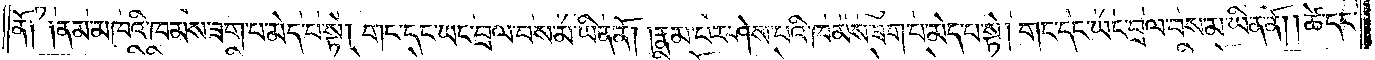ནོ༑ ༑ནམ་མཁའི་ཁམས་ཟག་པ་མེད་པ་སྟེ། གང་དང་ཡང་བྲལ་བས་མ་ཡིན་ནོ། །རྣམ་པར་ཤེས་པའི་ཁམས་ཟག་པ་མེད་པ་སྟེ། གང་དང་ཡང་བྲལ་བས་མ་ཡིན་ནོ། །ཚེ་དང་
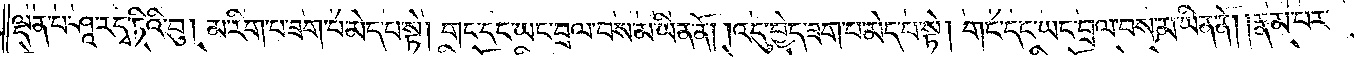ལྡན་པ་ཤཱ་ར་དྭ་ཏིའི་བུ། མ་རིག་པ་ཟག་པ་མེད་པ་སྟེ། གང་དང་ཡང་བྲལ་བས་མ་ཡིན་ནོ། །འདུ་བྱེད་ཟག་པ་མེད་པ་སྟེ། གང་དང་ཡང་བྲལ་བས་མ་ཡིན་ནོ། །རྣམ་པར་
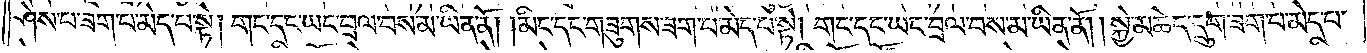ཤེས་པ་ཟག་པ་མེད་པ་སྟེ། གང་དང་ཡང་བྲལ་བས་མ་ཡིན་ནོ། །མིང་དང་གཟུགས་ཟག་པ་མེད་པ་སྟེ། གང་དང་ཡང་བྲལ་བས་མ་ཡིན་ནོ། །སྐྱེ་མཆེད་དྲུག་ཟག་པ་མེད་པ་
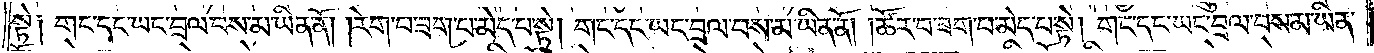སྟེ༑ གང་དང་ཡང་བྲལ་བས་མ་ཡིན་ནོ། །རེག་པ་ཟག་པ་མེད་པ་སྟེ། གང་དང་ཡང་བྲལ་བས་མ་ཡིན་ནོ། །ཚོར་བ་ཟག་པ་མེད་པ་སྟེ། གང་དང་ཡང་བྲལ་བས་མ་ཡིན་
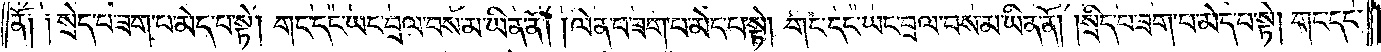ནོ༑ ༑།སྲེད་པ་ཟག་པ་མེད་པ་སྟེ། གང་དང་ཡང་བྲལ་བས་མ་ཡིན་ནོ། །ལེན་པ་ཟག་པ་མེད་པ་སྟེ། གང་དང་ཡང་བྲལ་བས་མ་ཡིན་ནོ། །སྲིད་པ་ཟག་པ་མེད་པ་སྟེ། གང་དང་
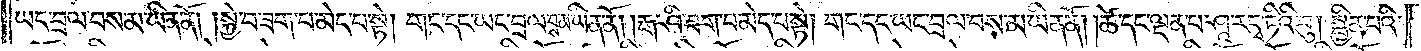ཡང་བྲལ་བས་མ་ཡིན་ནོ། །སྐྱེ་བ་ཟག་པ་མེད་པ་སྟེ། གང་དང་ཡང་བྲལ་བས་མ་ཡིན་ནོ། །རྒ་ཤི་ཟག་པ་མེད་པ་སྟེ། གང་དང་ཡང་བྲལ་བས་མ་ཡིན་ནོ། །ཚེ་དང་ལྡན་པ་ཤཱ་ར་དྭ་ཏིའི་བུ། སྦྱིན་པའི་
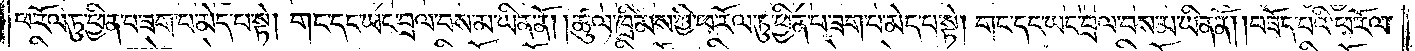ཕ་རོལ་ཏུ་ཕྱིན་པ་ཟག་པ་མེད་པ་སྟེ། གང་དང་ཡང་བྲལ་བས་མ་ཡིན་ནོ། །ཚུལ་ཁྲིམས་ཀྱི་ཕ་རོལ་ཏུ་ཕྱིན་པ་ཟག་པ་མེད་པ་སྟེ། གང་དང་ཡང་བྲལ་བས་མ་ཡིན་ནོ། །བཟོད་པའི་ཕ་རོལ་
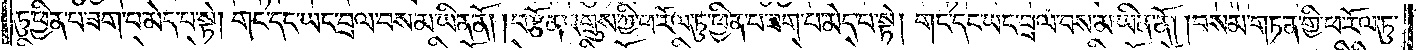ཏུ་ཕྱིན་པ་ཟག་པ་མེད་པ་སྟེ། གང་དང་ཡང་བྲལ་བས་མ་ཡིན་ནོ། །བརྩོན་འགྲུས་ཀྱི་ཕ་རོལ་ཏུ་ཕྱིན་པ་ཟག་པ་མེད་པ་སྟེ། གང་དང་ཡང་བྲལ་བས་མ་ཡིན་ནོ། །བསམ་གཏན་གྱི་ཕ་རོལ་ཏུ་
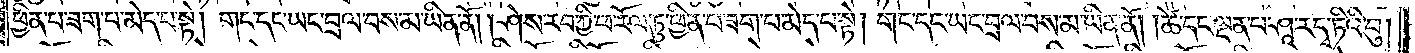ཕྱིན་པ་ཟག་པ་མེད་པ་སྟེ། གང་དང་ཡང་བྲལ་བས་མ་ཡིན་ནོ། །ཤེས་རབ་ཀྱི་ཕ་རོལ་ཏུ་ཕྱིན་པ་ཟག་པ་མེད་པ་སྟེ། གང་དང་ཡང་བྲལ་བས་མ་ཡིན་ནོ། །ཚེ་དང་ལྡན་པ་ཤཱ་ར་དྭ་ཏིའི་བུ།
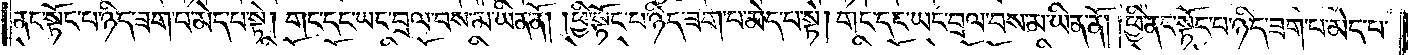ནང་སྟོང་པ་ཉིད་ཟག་པ་མེད་པ་སྟེ། གང་དང་ཡང་བྲལ་བས་མ་ཡིན་ནོ། །ཕྱི་སྟོང་པ་ཉིད་ཟག་པ་མེད་པ་སྟེ། གང་དང་ཡང་བྲལ་བས་མ་ཡིན་ནོ། །ཕྱི་ནང་སྟོང་པ་ཉིད་ཟག་པ་མེད་པ་
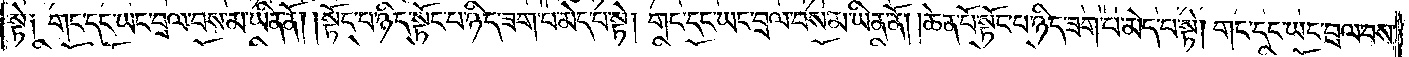སྟེ། གང་དང་ཡང་བྲལ་བས་མ་ཡིན་ནོ། །སྟོང་པ་ཉིད་སྟོང་པ་ཉིད་ཟག་པ་མེད་པ་སྟེ། གང་དང་ཡང་བྲལ་བས་མ་ཡིན་ནོ། །ཆེན་པོ་སྟོང་པ་ཉིད་ཟག་པ་མེད་པ་སྟེ། གང་དང་ཡང་བྲལ་བས་
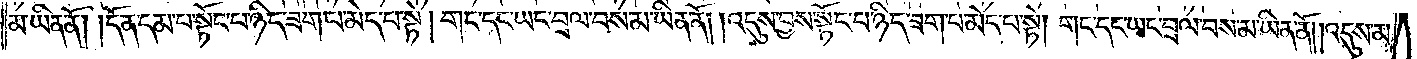མ་ཡིན་ནོ། །དོན་དམ་པ་སྟོང་པ་ཉིད་ཟག་པ་མེད་པ་སྟེ། གང་དང་ཡང་བྲལ་བས་མ་ཡིན་ནོ། །འདུས་བྱས་སྟོང་པ་ཉིད་ཟག་པ་མེད་པ་སྟེ། གང་དང་ཡང་བྲལ་བས་མ་ཡིན་ནོ། །འདུས་མ་
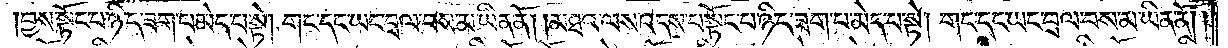བྱས་སྟོང་པ་ཉིད་ཟག་པ་མེད་པ་སྟེ། གང་དང་ཡང་བྲལ་བས་མ་ཡིན་ནོ། །མཐའ་ལས་འདས་པ་སྟོང་པ་ཉིད་ཟག་པ་མེད་པ་སྟེ། གང་དང་ཡང་བྲལ་བས་མ་ཡིན་ནོ། །
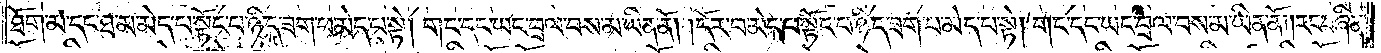ཐོག་མ་དང་ཐ་མ་མེད་པ་སྟོང་པ་ཉིད་ཟག་པ་མེད་པ་སྟེ། གང་དང་ཡང་བྲལ་བས་མ་ཡིན་ནོ། །དོར་བ་མེད་པ་སྟོང་པ་ཉིད་ཟག་པ་མེད་པ་སྟེ། གང་དང་ཡང་བྲལ་བས་མ་ཡིན་ནོ། །རང་བཞིན་
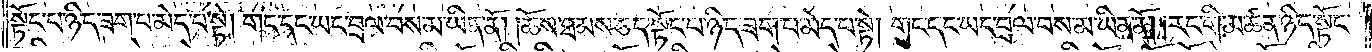སྟོང་པ་ཉིད་ཟག་པ་མེད་པ་སྟེ། གང་དང་ཡང་བྲལ་བས་མ་ཡིན་ནོ། །ཆོས་ཐམས་ཅད་སྟོང་པ་ཉིད་ཟག་པ་མེད་པ་སྟེ། གང་དང་ཡང་བྲལ་བས་མ་ཡིན་ནོ། །རང་གི་མཚན་ཉིད་སྟོང་
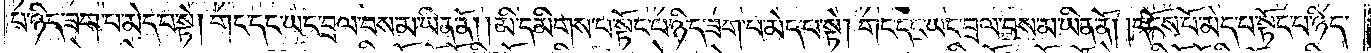པ་ཉིད་ཟག་པ་མེད་པ་སྟེ། གང་དང་ཡང་བྲལ་བས་མ་ཡིན་ནོ། །མི་དམིགས་པ་སྟོང་པ་ཉིད་ཟག་པ་མེད་པ་སྟེ། གང་དང་ཡང་བྲལ་བས་མ་ཡིན་ནོ། །དངོས་པོ་མེད་པ་སྟོང་པ་ཉིད་
